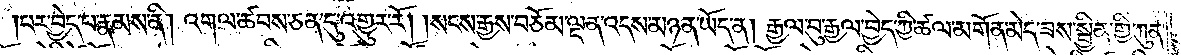པར་བྱེད་པ་རྣམས་ནི། འགལ་ཚབས་ཅན་དུ་འགྱུར་རོ། །སངས་རྒྱས་བཅོམ་ལྡན་འདས་མཉན་ཡོད་ན། རྒྱལ་བུ་རྒྱལ་བྱེད་ཀྱི་ཚལ་མགོན་མེད་ཟས་སྦྱིན་གྱི་ཀུན་
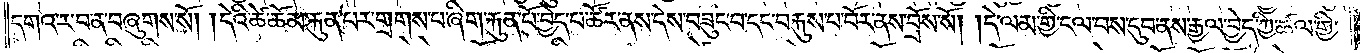དགའ་ར་བ་ན་བཞུགས་སོ། །དེའི་ཚེ་ཆོམ་རྐུན་པར་གྲགས་པ་ཞིག་རྐུན་པོ་བྱེད་པ་ཚོར་ནས་དེས་བཟུང་བ་དང་བརྐུས་པ་བོར་ནས་བྲོས་སོ། །དེ་ལམ་གྱི་ངལ་བས་དུབ་ནས་རྒྱལ་བྱེད་ཀྱི་ཚལ་གྱི་
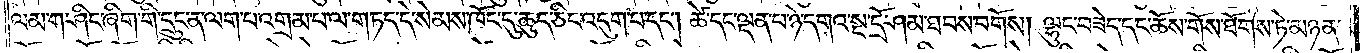ལམ་ག་ཤིང་ཞིག་གི་དྲུང་ན་ལག་པ་འགྲམ་པ་ལ་གཏད་དེ་སེམས་ཁོང་དུ་ཆུད་ཅིང་འདུག་པ་དང༌། ཚེ་དང་ལྡན་པ་ཉེ་དགའ་སྔ་དྲོ་ཤམ་ཐབས་བགོས། ལྷུང་བཟེད་དང་ཆོས་གོས་ཐོགས་ཏེ་མཉན་
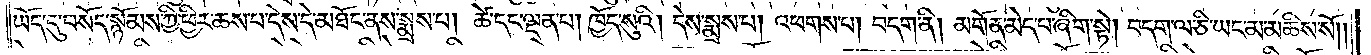ཡོད་དུ་བསོད་སྙོམས་ཀྱི་ཕྱིར་ཆས་པ་དེས་དེ་མཐོང་ནས་སྨྲས་པ། ཚེ་དང་ལྡན་པ། ཁྱོད་སུའི། དེས་སྨྲས་པ། འཕགས་པ། བདག་ནི། མགོན་མེད་པ་ཞིག་སྟེ། བདག་ལ་ཅི་ཡང་མ་མཆིས་སོ༎
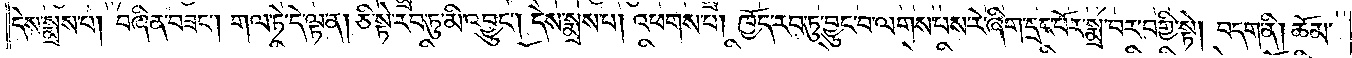དེས་སྨྲས་པ། བཞིན་བཟང༌། གལ་ཏེ་དེ་ལྟ་ན། ཅི་སྟེ་རབ་ཏུ་མི་འབྱུང༌། དེས་སྨྲས་པ། འཕགས་པ། ཁྱོད་རབ་ཏུ་བྱུང་བ་ལགས་པས་རེ་ཞིག་དྲང་པོར་སྨྲ་བར་བགྱི་སྟེ། བདག་ནི། ཆོམ་
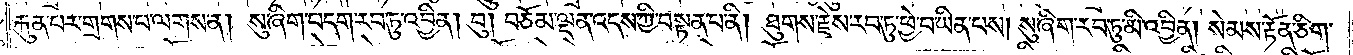རྐུན་པར་གྲགས་པ་ལགས་ན། སུ་ཞིག་བདག་རབ་ཏུ་འབྱིན། བུ། བཅོམ་ལྡན་འདས་ཀྱི་བསྟན་པ་ནི། ཐུགས་རྗེས་རབ་ཏུ་ཕྱེ་བ་ཡིན་པས། སུ་ཞིག་རབ་ཏུ་མི་འབྱིན། སེམས་རྟོན་ཅིག་
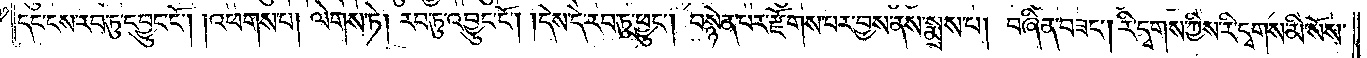དང་ངས་རབ་ཏུ་དབྱུང་ངོ༌། །འཕགས་པ། ལེགས་ཏེ། རབ་ཏུ་འབྱུང་ངོ༌། །དེས་དེ་རབ་ཏུ་ཕྱུང༌། བསྙེན་པར་རྫོགས་པར་བྱས་ནས་སྨྲས་པ། བཞིན་བཟང༌། རི་དྭགས་ཀྱིས་རི་དྭགས་མི་སོས་
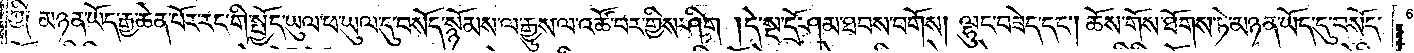ཀྱི༑ མཉན་ཡོད་རྒྱ་ཆེན་པོར་རང་གི་སྤྱོད་ཡུལ་ཕ་ཡུལ་དུ་བསོད་སྙོམས་ལ་རྒྱུས་ལ་འཚོ་བར་གྱིས་ཤིག །དེ་སྔ་དྲོ་ཤམ་ཐབས་བགོས། ལྷུང་བཟེད་དང༌། ཆོས་གོས་ཐོགས་ཏེ་མཉན་ཡོད་དུ་བསོད་
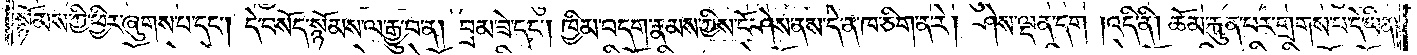སྙོམས་ཀྱི་ཕྱིར་ཞུགས་པ་དང༌། དེ་བསོད་སྙོམས་ལ་རྒྱུ་བ་ན། བྲམ་ཟེ་དང༌། ཁྱིམ་བདག་རྣམས་ཀྱིས་ངོ་ཤེས་ནས་དེ་ན་ཁ་ཅིག་ན་རེ། ཤེས་ལྡན་དག །འདི་ནི། ཆོམ་རྐུན་པར་གྲགས་པ་དེ་ཡིན།
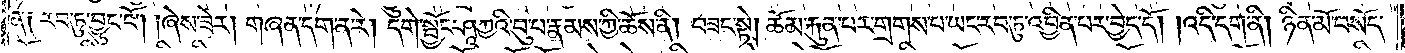ན༑ རབ་ཏུ་བྱུང་ངོ༌། །ཞེས་ཟེར། གཞན་དག་ན་རེ། དགེ་སྦྱོང་ཤཱཀྱའི་བུ་པ་རྣམས་ཀྱི་ཆོས་ནི། བཟང་སྟེ། ཆོམ་རྐུན་པར་གྲགས་པ་ཡང་རབ་ཏུ་འབྱིན་པར་བྱེད་དོ། །འདི་དག་ནི། ཉིན་མོ་བསོད་
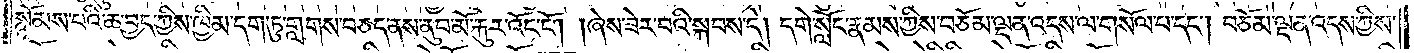སྙོམས་པའི་ཆ་བྱད་ཀྱིས་ཁྱིམ་དག་ཏུ་གླགས་བཅད་ནས་ནུབ་མོ་རྐུར་འོང་ངོ༌། །ཞེས་ཟེར་བའི་སྐབས་དེ། དགེ་སློང་རྣམས་ཀྱིས་བཅོམ་ལྡན་འདས་ལ་གསོལ་པ་དང༌། བཅོམ་ལྡན་འདས་ཀྱིས་
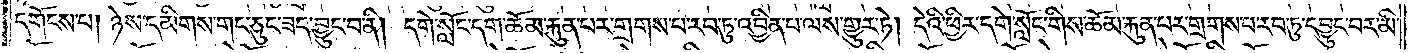དགོངས་པ། ཉེས་དམིགས་གང་ཅུང་ཟད་བྱུང་བ་ནི། དགེ་སློང་དག་ཆོམ་རྐུན་པར་གྲགས་པ་རབ་ཏུ་འབྱིན་པ་ལས་གྱུར་ཏེ། དེའི་ཕྱིར་དགེ་སློང་གིས་ཆོམ་རྐུན་པར་གྲགས་པ་རབ་ཏུ་དབྱུང་བར་མི་
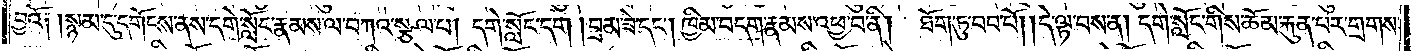བྱའོ༑ །སྙམ་དུ་དགོངས་ནས་དགེ་སློང་རྣམས་ལ་བཀའ་སྩལ་པ། དགེ་སློང་དག །བྲམ་ཟེ་དང༌། ཁྱིམ་བདག་རྣམས་འཕྱ་བ་ནི། ཐོག་ཏུ་བབ་པོ། །དེ་ལྟ་བས་ན། དགེ་སློང་གིས་ཆོམ་རྐུན་པར་གྲགས་
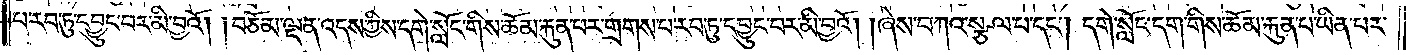པ་རབ་ཏུ་དབྱུང་བར་མི་བྱའོ། །བཅོམ་ལྡན་འདས་ཀྱིས་དགེ་སློང་གིས་ཆོམ་རྐུན་པར་གྲགས་པ་རབ་ཏུ་དབྱུང་བར་མི་བྱའོ། །ཞེས་བཀའ་སྩལ་པ་དང༌། དགེ་སློང་དག་གིས་ཆོམ་རྐུན་པ་ཡིན་པར་
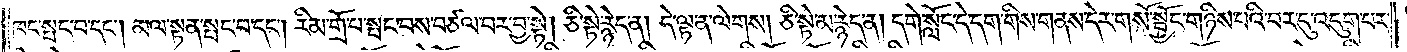ཁང་སྤང་བ་དང༌། མལ་སྟན་སྤང་བ་དང༌། རིམ་གྲོ་པ་སྤང་བས་བཙལ་བར་བྱ་སྟེ། ཅི་སྟེ་རྙེད་ན། དེ་ལྟ་ན་ལེགས། ཅི་སྟེ་མ་རྙེད་ན། དགེ་སློང་དེ་དག་གིས་གནས་དེར་གསོ་སྦྱོང་གཉིས་པའི་བར་དུ་འདུག་པར་
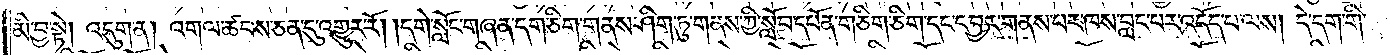མི་བྱ་སྟེ། འདུག་ན། འགལ་ཆབས་ཅན་དུ་འགྱུར་རོ། །དགེ་སློང་གཞན་དག་ཅིག་གནས་ཤིག་ཏུ་གནས་ཀྱི་སློབ་དཔོན་གཅིག་ཅིག་དང་དབྱར་གནས་པར་ཁས་བླང་བར་འདོད་པ་ལས། དེ་དག་གི་
